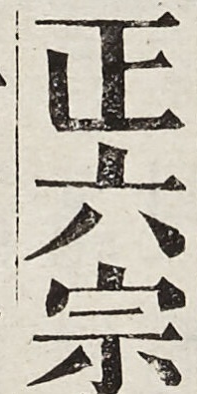正六宗
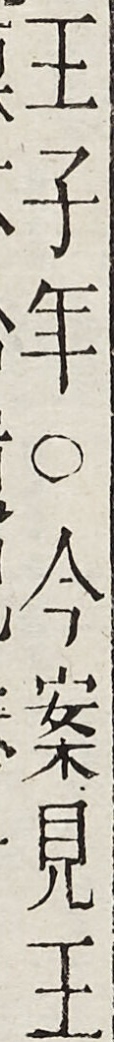王子軍○今案見王
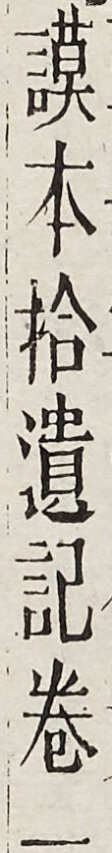謨本拾遺記卷一
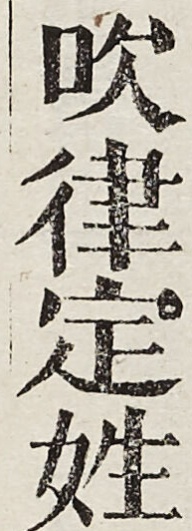吹律定姓
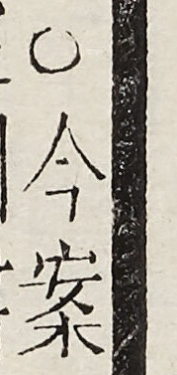○今案　　　欽
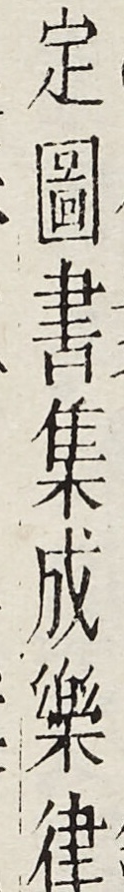足圖書集成樂律
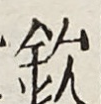欽
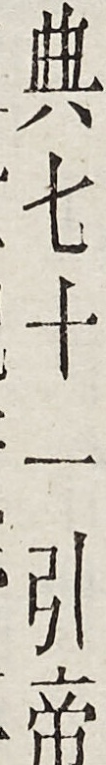典七十一引帝
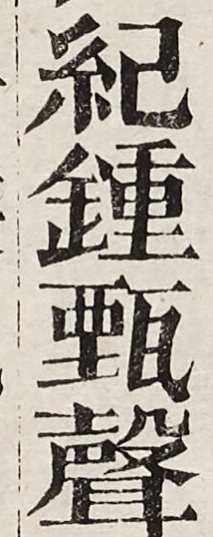紀鍾甄聲
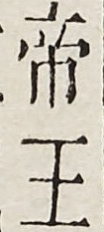帝王
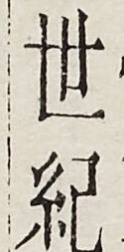世紀
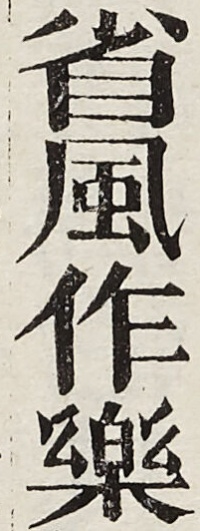省風作樂
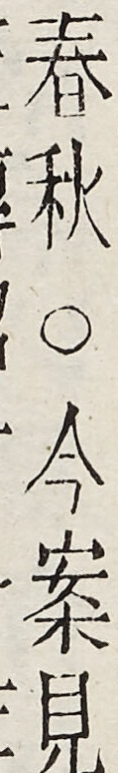春秋○今案見
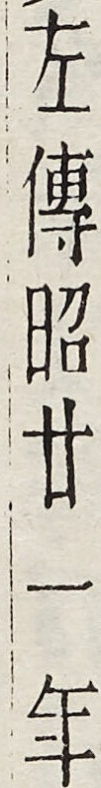左傳昭廿一年
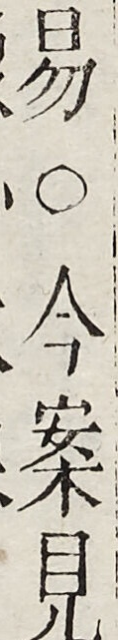易○今案見
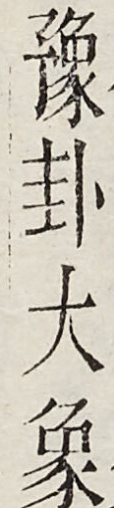豫卦大象
